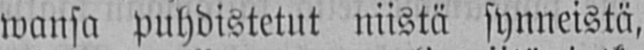wansa puhdistetut niistä synneistä,
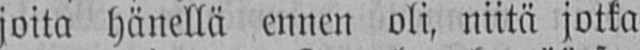joita hänellä ennen oli, niitä jotka
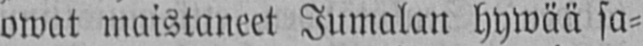owat maistaneet Jumalan hywää sa-
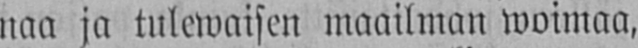naa ja tulewaisen maailman woimaa,
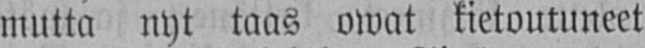mutta nyt taas owat kietoutuneet
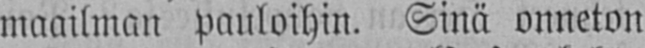maailman pauloihin. Sinä onneton
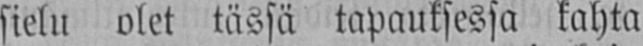sielu olet tässä tapauksessa kahta
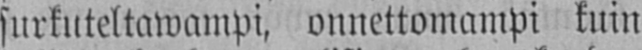surkuteltawampi, onnettomampi kuin
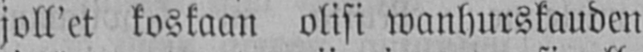joll'et koskaan olisi wanhurskauden
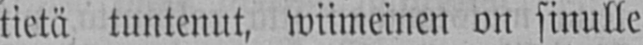tietä tuntenut, wiimeinen on sinulle
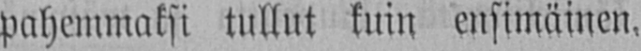pahemmaksi tullut kuin ensimäinen,
